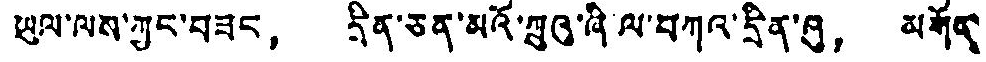ཡུལ་ལས་ཀྱང་བཟང， དྲིན་ཅན་མའོ་ཀྲུའུ་ཞི ལ་བཀའ་དྲིན་ཞུ， མགོན་
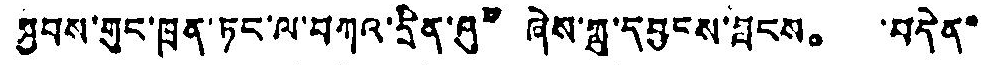ཐབས་གུང་ཁྲན་ཏང་ལ་བཀའ་དྲིན་ཞུ” ཞེས་ཀླུ་དབྱངས་བླངས。 བདེན་
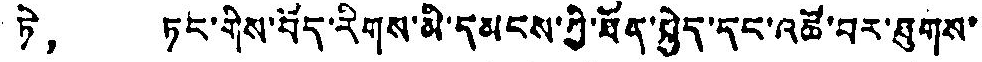ཏེ， ཏང་གིས་བོད་རིགས་མི་དམངས་ཀྱི་ཐོན་སྐྱེད་དང་འཚོ་བར་ཐུགས་
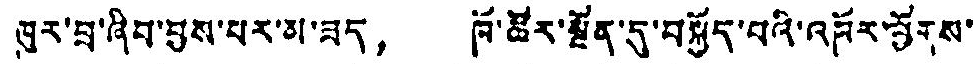ཁུར་བྲ་ཞིབ་བྱས་པར་མ་ཟད， ཁོ་ཚོར་སྔོན་དུ་བསྐྱོད་པའི་འཁོར་ཕྱོགས་
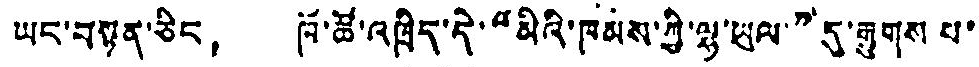ཡང་བསྟན་ཅིང， ཁོ་ཚོ་འཁྲིད་དེ་“མིའི་ཁམས་ཀྱི་ལྷ་ཡུལ་”དུ་རྒྱུགས པ་
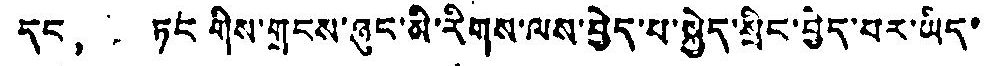དང， ཏང གིས་གྲངས་ཉུང་མི་རིགས་ལས་བྱེད་པ་སྐྱེད་སྲིང་བྱེད་པར་ཡིད་
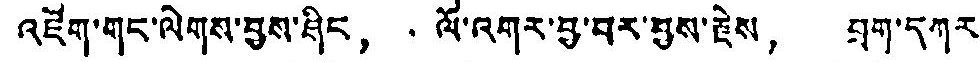འཇོག་གང་ལེགས་བྱས་ཤིང， ལོ་འགར་བྱ་བར་བྱས་རྗེས， བྲག་དཀར
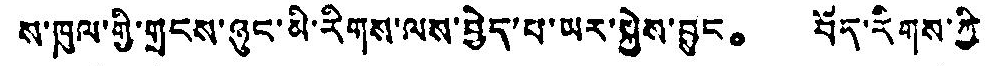ས་ཁུལ་གྱི་གྲངས་ཉུང་མི་རིགས་ལས་བྱེད་པ་ཡར་སྐྱེས་བྱུང。 བོད་རིགས་ཀྱི་
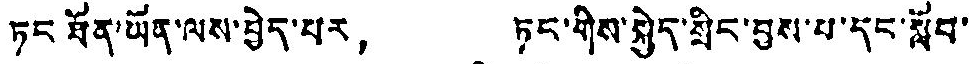ཏང ཐོན་ཡོན་ལས་བྱེད་པར， ཏང་གིས་སྐྱེད་སྲིང་བྱས་པ་དང་སློབ་
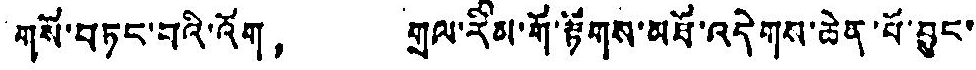གསོ་བཏང་བའི་འོག， གྲལ་རིམ་གོ་རྟོགས་མཐོ་འདེགས་ཆེན་པོ་བྱུང་
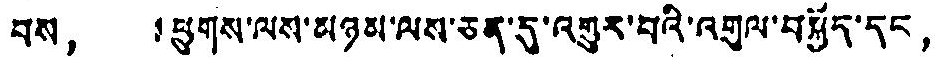བས， ཕྱུགས་ལས་མཉམ་ལས་ཅན་དུ་འགྱུར་བའི་འགུལ་བསྐྱོད་དང，
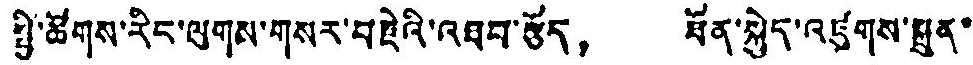སྤྱི་ཚོགས་རིང་ལུགས་གསར་བརྗེའི་འཐབ་རྩོད， ཐོན་སྐྱེད་འཛུགས་སྤྲུན་
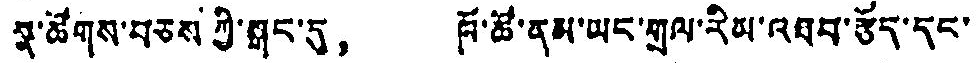སྣ་ཚོགས་བཅས ཀྱི་སྒང་དུ， ཁོ་ཚོ་ནམ་ཡང་གྲལ་རིམ་འཐབ་རྩོད་དང་
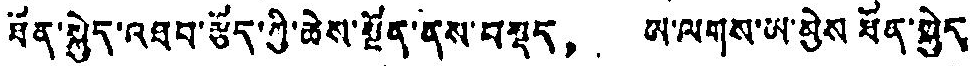ཐོན་སྐྱེད་འཐབ་རྩོད་ཀྱི་ཆེས་སྔོན་ནས་བསྡད， ཨ་ལགས་ཨ་མྱེས ཐོན་སྐྱེད་
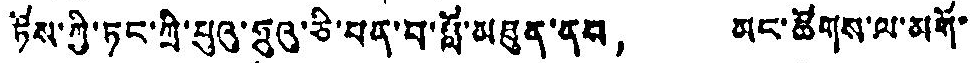ཏོས་ཀྱི་ཏང་ཀྲི་པུའུ་ཧྲུའུ་ཅི་པན་བ་བློ་མཐུན་ནས， མང་ཚོགས་ལ་མགོ་
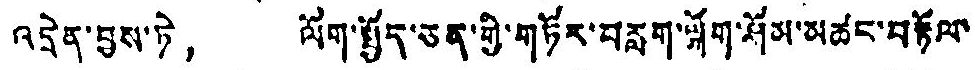འདྲེན་བྱས་ཏེ， ལོག་སྤྱོད་ཅན་གྱི་གཏོར་བརླག་ལྐོག་ཤོམ་མཚང་བརྟོལ་
